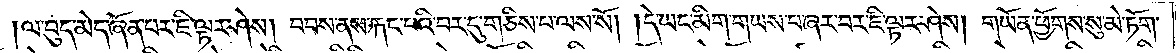ལ་བུད་མེད་ཞོན་པར་ཇི་ལྟར་ཤེས། བབས་ནས་རྐང་བའི་བར་དུ་གཅིས་པ་ལས་སོ། །དེ་ཡང་མིག་གཡས་པ་ཞར་བར་ཇི་ལྟར་ཤེས། གཡོན་ཕྱོགས་སུ་མེ་ཏོག་
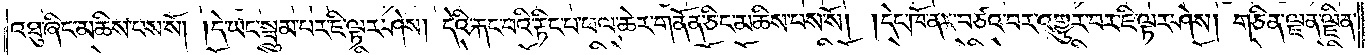འཐུ་ཞིང་མཆིས་པས་སོ། །དེ་ཡང་སྦྲུམ་པར་ཇི་ལྟར་ཤེས། དེའི་རྐང་པའི་རྟིང་པ་ཕལ་ཆེར་གནོན་ཅིང་མཆིས་པས་སོ། །དེང་ཁོ་ནར་བཙའ་བར་འགྱུར་བར་ཇི་ལྟར་ཤེས། གཅིན་ལྗན་ལྗིན་
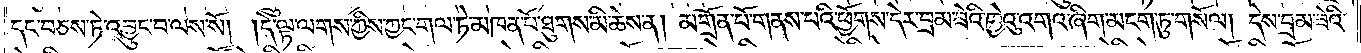དང་བཅས་ཏེ་འབྱུང་བ་ལས་སོ། །དེ་ལྟ་ལགས་ཀྱིས་ཀྱང་གལ་ཏེ་མཁན་པོ་ཐུགས་མི་ཆེས་ན། མགྲོན་པོ་གནས་པའི་ཕྱོགས་དེར་བྲམ་ཟེའི་ཁྱེའུ་འགའ་ཞིག་མངག་ཏུ་གསོལ། དེས་བྲམ་ཟེའི་
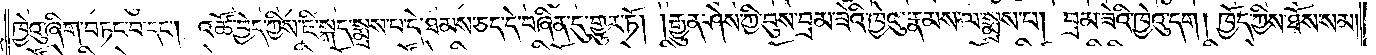ཁྱེའུ་ཞིག་བཏང་བ་དང༌། འཚོ་བྱེད་ཀྱིས་ཇི་སྐད་སྨྲས་པ་དེ་ཐམས་ཅད་དེ་བཞིན་དུ་གྱུར་ཏོ། །རྒྱུན་ཤེས་ཀྱི་བུས་བྲམ་ཟེའི་ཁྱེའུ་རྣམས་ལ་སྨྲས་པ། བྲམ་ཟེའི་ཁྱེའུ་དག །ཁྱོད་ཀྱིས་ཐོས་སམ།
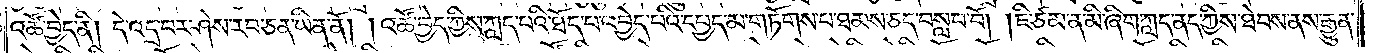འཚོ་བྱེད་ནི། དེ་འདྲ་བར་ཤེས་རབ་ཅན་ཡིན་ནོ། །འཚོ་བྱེད་ཀྱིས་ཀླད་པའི་ཐོད་པ་འབྱེད་པའི་དཔྱད་མ་གཏོགས་པ་ཐམས་ཅད་བསླབ་བོ། །ཇི་ཙམ་ན་མི་ཞིག་ཀླད་ནད་ཀྱིས་ཐེབས་ནས་རྒྱུན་
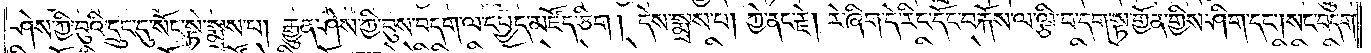ཤེས་ཀྱི་བུའི་དྲུང་དུ་སོང་སྟེ་སྨྲས་པ། རྒྱུན་ཤེས་ཀྱི་བུས་བདག་ལ་དཔྱད་མཛོད་ཅིག །དེས་སྨྲས་པ། ཀྱེ་ནང་རྗེ། རེ་ཞིག་དེ་རིང་དོང་བརྐོས་ལ་ལྕི་བ་དག་སྟ་གྱོན་གྱིས་ཤིག་དང༌། སང་བདག་
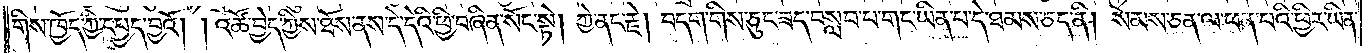གིས་ཁྱོད་ཀྱི་དཔྱད་བྱའོ། །འཚོ་བྱེད་ཀྱིས་ཐོས་ནས་དེ་དེའི་ཕྱི་བཞིན་སོང་སྟེ། ཀྱེ་ནང་རྗེ། བདག་གིས་ཅུང་ཟད་བསླབ་པ་གང་ཡིན་པ་དེ་ཐམས་ཅད་ནི། སེམས་ཅན་ལ་ཕན་པའི་ཕྱིར་ཡིན་
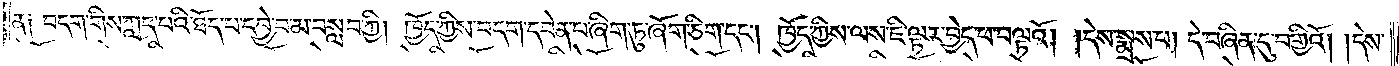ན༑ བདག་གིས་ཀླད་པའི་ཐོད་པ་དབྱེ་བ་མ་བསླབ་ཀྱི། ཁྱོད་ཀྱིས་བདག་དབེན་པ་ཞིག་ཏུ་ཞོག་ཅིག་དང༌། ཁྱོད་ཀྱིས་ལས་ཇི་ལྟར་བྱེད་པ་བལྟའོ། །དེས་སྨྲས་པ། དེ་བཞིན་དུ་བགྱིའོ། །དེས་
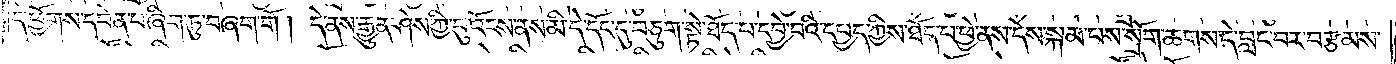དེ་ཕྱོགས་དབེན་པ་ཞིག་ཏུ་བཞག་གོ །དེ་ནས་རྒྱུན་ཤེས་ཀྱི་བུ་འོངས་ནས་མི་དེ་དོང་དུ་བཅུག་སྟེ་ཐོད་པ་དབྱེ་བའི་དཔྱད་ཀྱིས་ཐོད་པ་ཕྱེ་ནས་དེས་སྐམ་པས་སྲོག་ཆགས་དེ་བླང་བར་བརྩམས་
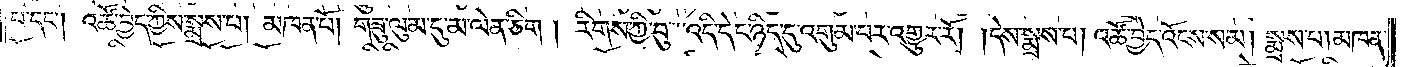པ་དང༌། འཚོ་བྱེད་ཀྱིས་སྨྲས་པ། མཁན་པོ། གཟུ་ལུམ་དུ་མ་ལེན་ཅིག །རིགས་ཀྱི་བུ་འདི་དེང་ཉིད་དུ་འགུམ་པར་འགྱུར་རོ། །དེས་སྨྲས་པ། འཚོ་བྱེད་འོངས་སམ། སྨྲས་པ། མཁན་
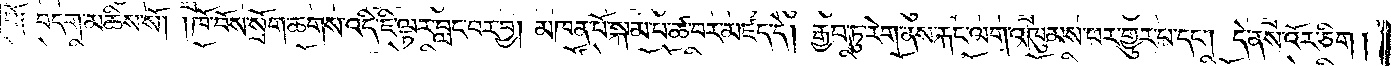པོ། བདག་མཆིས་སོ། །ཁོ་བོས་སྲོག་ཆགས་འདི་ཇི་ལྟར་བླང་བར་བྱ། མཁན་པོ་སྐམ་པ་ཚ་བར་མཛད་དེ། རྒྱབ་ཏུ་རེག་ནས་རྐང་ལག་འཁུམས་པར་གྱུར་པ་དང༌། དེ་ནས་འོར་ཅིག །
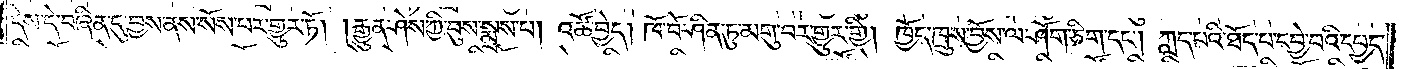དེས་དེ་བཞིན་དུ་བྱས་ནས་སོས་པར་གྱུར་ཏོ། །རྒྱུན་ཤེས་ཀྱི་བུས་སྨྲས་པ། འཚོ་བྱེད། ཁོ་བོ་ཤིན་ཏུ་མགུ་བར་གྱུར་གྱི། ཁྱོད་ཁྲུས་བྱོས་ལ་ཤོག་ཅིག་དང༌། ཀླད་པའི་ཐོད་པ་དབྱེ་བའི་དཔྱད་
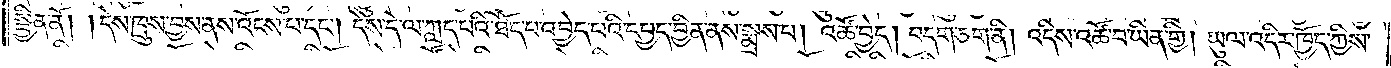སྦྱིན་ནོ། །དེས་ཁྲུས་བྱས་ནས་འོངས་པ་དང༌། དེས་དེ་ལ་ཀླད་པའི་ཐོད་པ་འབྱེད་པའི་དཔྱད་བྱིན་ནས་སྨྲས་པ། འཚོ་བྱེད། བདག་ཅག་ནི། འདིས་འཚོ་བ་ཡིན་གྱི། ཡུལ་འདིར་ཁྱོད་ཀྱིས་
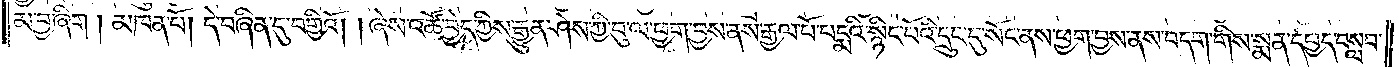མ་བྱ་ཞིག །མཁན་པོ། དེ་བཞིན་དུ་བགྱིའོ། །ཞེས་འཚོ་བྱེད་ཀྱིས་རྒྱུན་ཤེས་ཀྱི་བུ་ལ་ཕྱག་བྱས་ནས་རྒྱལ་པོ་པདྨའི་སྙིང་པོའི་དྲུང་དུ་སོང་ནས་ཕྱག་བྱས་ནས་བདག་གིས་སྨན་དཔྱད་བསླབ་
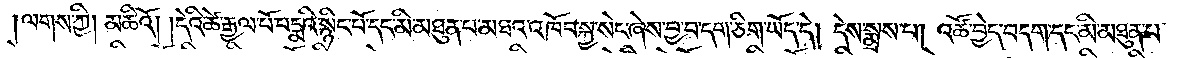།ལགས་ཀྱི། མཆིའོ། །དེའི་ཚེ་རྒྱལ་པོ་པདྨའི་སྙིང་པོ་དང་མི་མཐུན་པ་མཐའ་འཁོབ་སྐྱ་སེང་ཞེས་བྱ་བ་དག་ཅིག་ཡོད་དེ། དེས་སྨྲས་པ། འཚོ་བྱེད་བདག་དང་མི་མཐུན་པ་
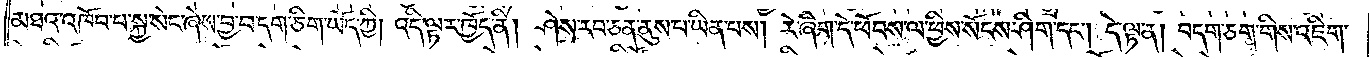མཐའ་འཁོབ་པ་སྐྱ་སེང་ཞེས་བྱ་བ་དག་ཅིག་ཡོད་ཀྱི། འདི་ལྟར་ཁྱོད་ནི། ཤེས་རབ་ཅན་ནུས་པ་ཡིན་པས། རེ་ཞིག་དེ་ཕོབས་ལ་ཕྱིས་སོངས་ཤིག་དང༌། དེ་ལྟ་ན། བདག་ཅག་གིས་འཇིག་
